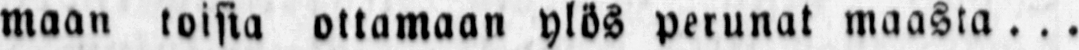maan toisia ottamaan ylös perunat maasta. . .
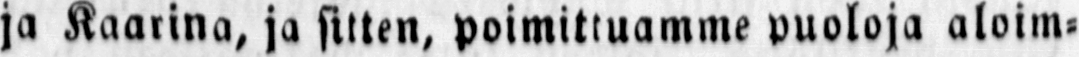ja Kaarina, ja sitten, poimittuamme puoloja aloim-
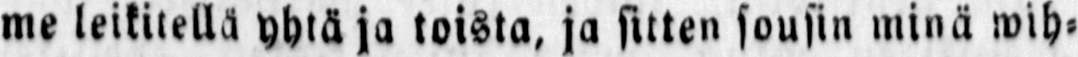me leikitellä yhtä ja toista, ja sitten sousin minä wih-
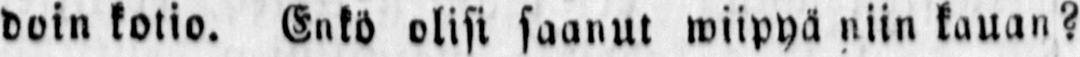doin kotio. Enkö olisi saanut wiipyä niin kauan?
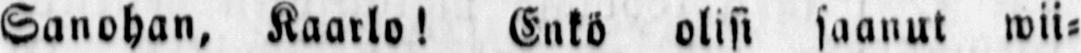Sanohan, Kaarlo! Enkö olisi saanut wii-
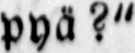pyä?"
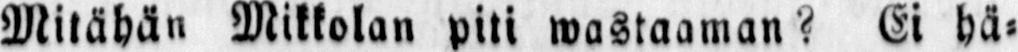Mitähän Mikkolan piti wastaaman? Ei hä-
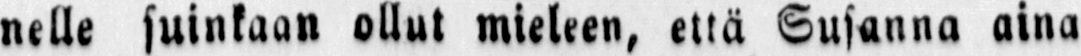nelle suinkaan ollut mieleen, että Susanna aina
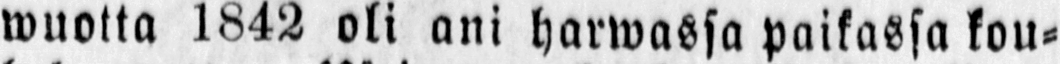wuotta 1842 oli ani harwassa paikassa kou-
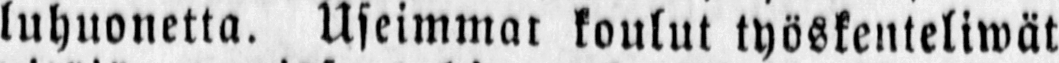luhuonetta. Useimmat koulut työskenteliwät
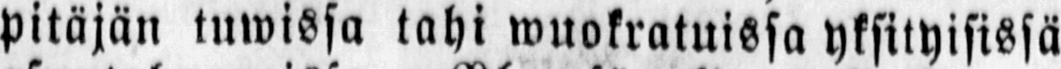pitäjän tuwissa tahi wuokratuissa yksityisissä
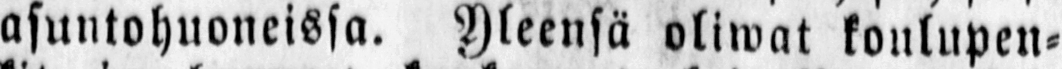asuntohuoneissa. Yleensä oliwat koulupen-
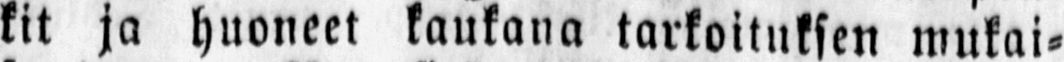kit ja huoneet kaukana tarkoituksen mukai-
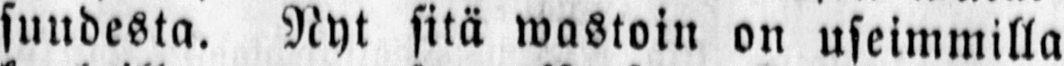suudesta. Nyt sitä wastoin on useimmilla
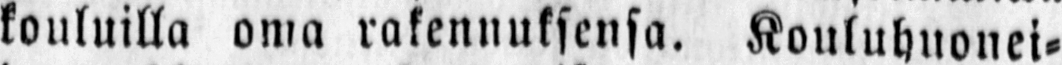kouluilla oma rakennuksensa. Kouluhuonei-
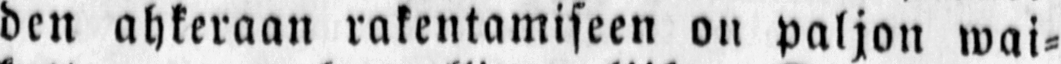den ahkeraan rakentamiseen on paljon wai-
